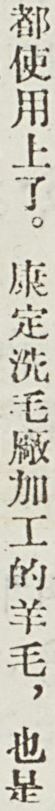都使用上了。康定洗毛廠加工的羊毛，也是
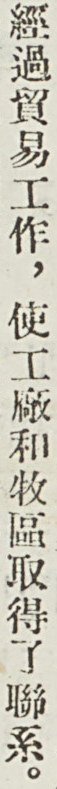經過貿易工作，使工廠和牧區取得了聯系。
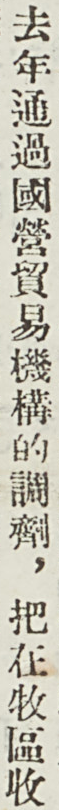去年通過國營貿易機構的調劑，把在牧區收
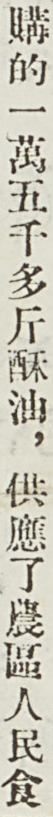購的一萬五千多斤酥油，供應了農區人民食
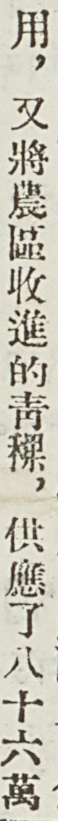用，又將農區收進的靑稞，供應了八十六萬
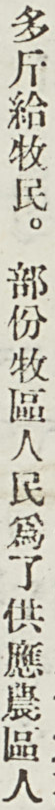多斤給牧民。部份牧區人民爲了供應農區人
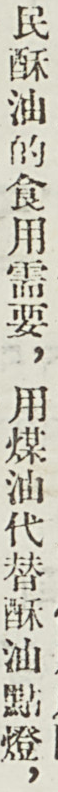民酥油的食用需要，用煤油代替酥油點燈，
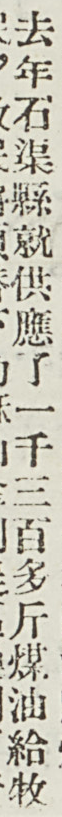去年石渠縣就供應了一千三百多斤煤油給牧
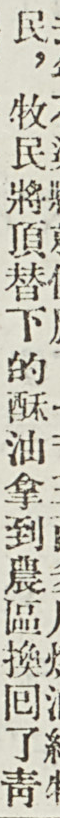民，牧民將頂替下的酥油拿到農區換囘了靑
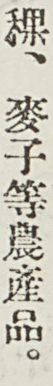稞、麥子等農產品。
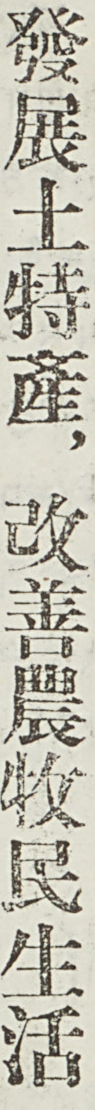發展土特產，改善農牧民生活
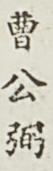曹公弼
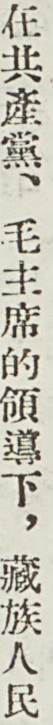在共產黨、毛主席的領導下，藏族人民
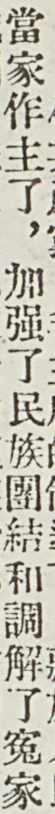當家作主了，加強了民族團結和調解了寃家
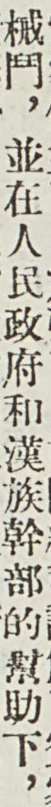械鬥，並在人民政府和漢族幹部的幫助下，
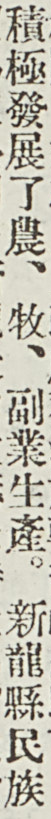積極發展了農、牧、副業生產。新龍縣民族
